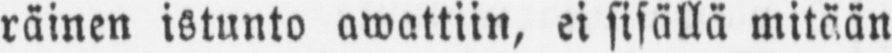räinen istunto awattiin, ei sisällä mitään
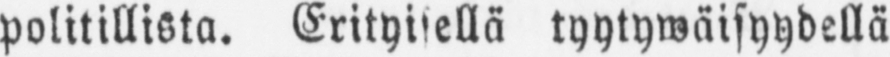politillista. Erityisellä tyytywäisyydellä
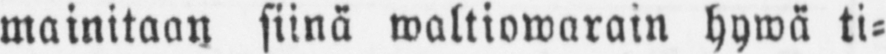mainitaan siinä waltiowarain hywä ti-
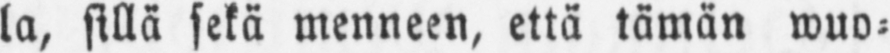la, sillä sekä menneen, että tämän wuo-
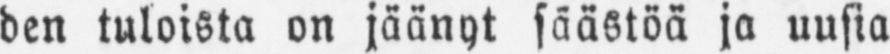den tuloista on jäänyt säästöä ja uusia
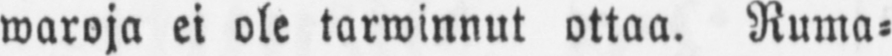waroja ei ole tarwinnut ottaa. Ruma-
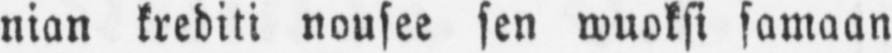nian krediti nousee sen wuoksi samaan
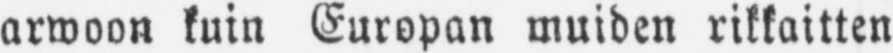arwoon kuin Europan muiden rikkaitten
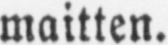maitten.
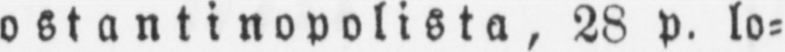Kosta n ti n o p oli st a , 28 P. lo-
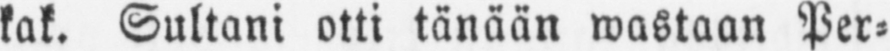kak. Sultani otti tänään wastaan Per-
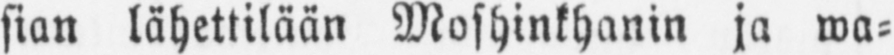sian lähettilään Moshinkhanin ja wa-
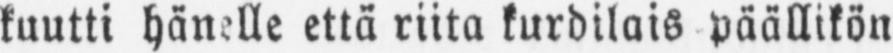kuutti hänelle että riita kurdilais päällikön
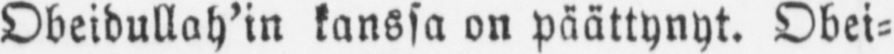Obeidullah'in kanssa on päättynyt. Obei-
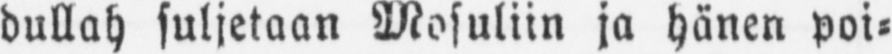dullah suljetaan Mosuliin ja hänen poi-
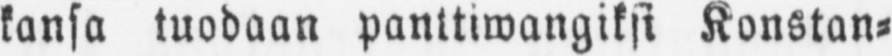kansa tuodaan panttiwangiksi Konstan-
